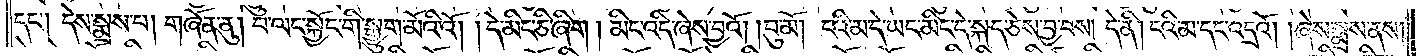དང༌། དེས་སྨྲས་པ། གཞོན་ནུ། བ་ལང་སྐྱོང་གི་སྒྱུག་མོའི་འོ། །དེ་མིང་ཅི་ཞིག། མིང་འདི་ཞེས་བྱའོ། །བུ་མོ། ངའི་མ་དེ་ཡང་མིང་དེ་སྐད་ཅེས་བྱ་བས། དེ་ནི། ངའི་མ་དང་འདྲའོ། །ཞེས་སྨྲས་ནས།
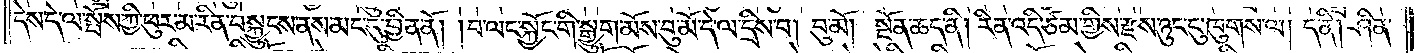དེས་དེ་ལ་སྤོས་ཀྱི་ཕུར་མ་རིན་བསྐྱུངས་ནས་མང་དུ་བྱིན་ནོ། །བ་ལང་སྐྱོང་གི་སྒྱུག་མོས་བུ་མོ་དེ་ལ་དྲིས་པ། བུ་མོ། སྔོན་ཆད་ནི། རིན་འདི་ཙམ་གྱིས་རྫས་ཉུང་ངུ་ཁུགས་ལ། ད་ནི། ཤིན་
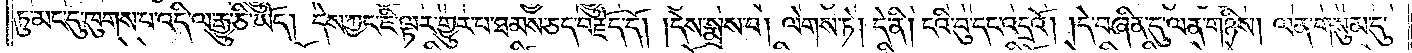ཏུ་མང་དུ་ཁུགས་པ་འདི་ལ་རྒྱུ་ཅི་ཡོད། དེས་ཀྱང་ཇི་ལྟར་གྱུར་པ་ཐམས་ཅད་བརྗོད་དོ། །དེས་སྨྲས་པ། ལེགས་ཏེ། དེ་ནི། ངའི་བུ་དང་འདྲའོ། །དེ་བཞིན་དུ་ལན་གཉིས། ལན་གསུམ་དུ་
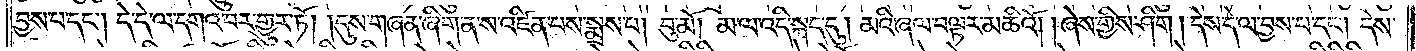བྱས་པ་དང༌། དེ་དེ་ལ་དགའ་བར་གྱུར་ཏོ། །དུས་གཞན་ཞིག་ན་ས་འཛིན་པས་སྨྲས་པ། བུ་མོ། མ་ལ་འདི་སྐད་དུ། མའི་ཞལ་བལྟར་མཆིའོ། །ཞེས་གྱིས་ཤིག །དེས་དེ་ལ་བྱས་པ་དང༌། དེས་
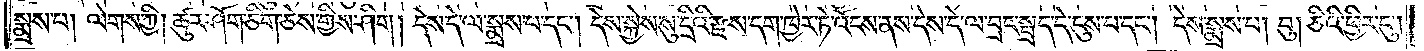སྨྲས་པ། ལེགས་ཀྱི། ཚུར་ཤོག་ཅིག་ཅེས་གྱིས་ཤིག། དེས་དེ་ལ་སྨྲས་པ་དང༌། དེས་སྐྱེས་སུ་དྲིའི་རྫས་དག་ཁྱེར་ཏེ་འོངས་ནས་དེས་དེ་ལ་བྲང་སྤྲད་དེ་དུས་པ་དང༌། དེས་སྨྲས་པ། བུ། ཅིའི་ཕྱིར་ངུ༌།
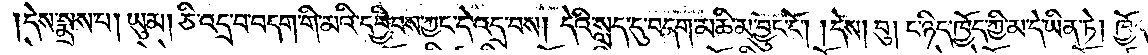དེས་སྨྲས་པ། ཡུམ། ཅི་འདྲ་བ་བདག་གི་མའི་དབྱིབས་ཀྱང་དེ་འདྲ་བས། དེའི་སླད་དུ་བདག་མཆི་མ་བྱུང་ངོ༌། །དེས། བུ། ང་ཉིད་ཁྱོད་ཀྱི་མ་དེ་ཡིན་ཏེ། ཁྱོད་
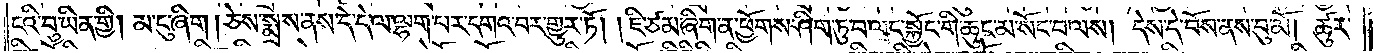ངའི་བུ་ཡིན་གྱི། མ་ངུ་ཞིག། ཅེས་སྨྲས་ནས་དེ་དེ་ལ་ལྷག་པར་དགའ་བར་གྱུར་ཏོ། །ཇི་ཙམ་ཞིག་ན་ཕྱོགས་ཤིག་ཏུ་བ་ལང་སྐྱོང་གི་ཆུང་མ་སོང་བ་ལས། དེས་དེ་བོས་ནས་བུ་མོ། ཚུར་
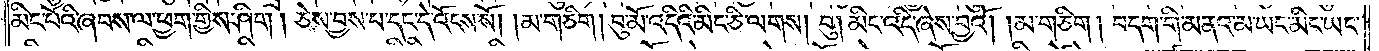མིང་པོའི་ཞབས་ལ་ཕྱག་གྱིས་ཤིག །ཅེས་བྱས་པ་དང་དེ་འོངས་སོ། །མ་གཅིག །བུ་མོ་འདིའི་མིང་ཅི་ལགས། བུ། མིང་འདི་ཞེས་བྱའོ། །མ་གཅིག །བདག་གི་མནའ་མ་ཡང་མིང་ཡང་
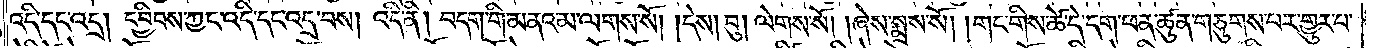འདི་དང་འདྲ། དབྱིབས་ཀྱང་འདི་དང་འདྲ་བས། འདི་ནི། བདག་གི་མནའ་མ་ལགས་སོ། །དེས། བུ། ལེགས་སོ། །ཞེས་སྨྲས་སོ། །གང་གིས་ཚེ་དེ་དག་ཕན་ཚུན་གཅུགས་པར་གྱུར་པ་
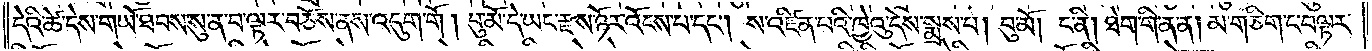དེའི་ཚེ་དེས་གཡོ་ཐབས་སུ་ན་བ་ལྟར་བཅོས་ནས་འདུག་གོ །བུ་མོ་དེ་ཡང་རྫས་ཉོར་འོངས་པ་དང༌། ས་འཛིན་པའི་ཁྱེའུ་དེས་སྨྲས་པ། བུ་མོ། ང་ནི། ཐེག་གི་ན་ན། མ་གཅིག་ང་བལྟར་
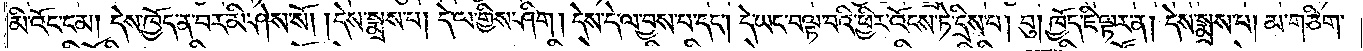མི་འོང་ངམ། དེས་ཁྱོད་ན་བར་མི་ཤེས་སོ། །དེས་སྨྲས་པ། དེ་ལ་གྱིས་ཤིག །དེས་དེ་ལ་བྱས་པ་དང༌། དེ་ཡང་བལྟ་བའི་ཕྱིར་འོངས་ཏེ་དྲིས་པ། བུ། ཁྱོད་ཇི་ལྟར་ན། དེས་སྨྲས་པ། མ་གཅིག་
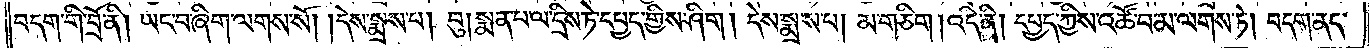བདག་གི་བྲོ་ནི། ཡང་བ་ཞིག་ལགས་སོ། །དེས་སྨྲས་པ། བུ། སྨན་པ་ལ་དྲིས་ཏེ་དཔྱད་གྱིས་ཤིག །དེས་སྨྲས་པ། མ་གཅིག །འདི་ནི། དཔྱད་ཀྱིས་འཚོ་བ་མ་ལགས་ཏེ། བདག་ནད་
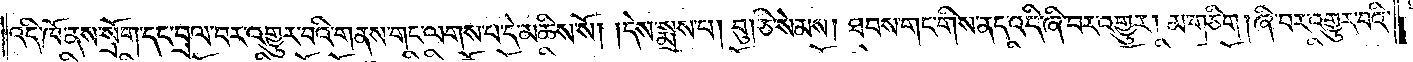འདི་ཁོ་ནས་སྲོག་དང་བྲལ་བར་འགྱུར་བའི་གནས་གང་ལགས་པ་དེ་མཆིས་སོ། །དེས་སྨྲས་པ། བུ། ཅི་སེམས། ཐབས་གང་གིས་ནད་འདི་ཞི་བར་འགྱུར། མ་གཅིག །ཞི་བར་འགྱུར་བའི་
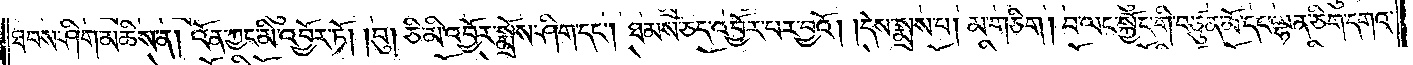ཐབས་ཤིག་མཆིས་ན། འོན་ཀྱང་མི་འབྱོར་ཏོ། །བུ། ཅི་མི་འབྱོར་སྨྲོས་ཤིག་དང༌། ཐམས་ཅད་འབྱོར་པར་བྱའོ། །དེས་སྨྲས་པ། མ་གཅིག །བ་ལང་སྐྱོང་གི་བཙུན་མོ་དང་ལྷན་ཅིག་དགའ་
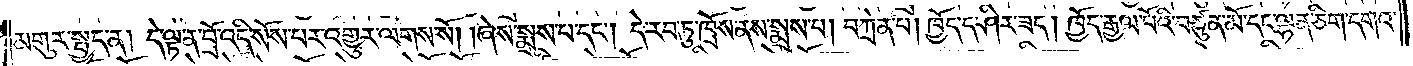མགུར་སྤྱད་ན། དེ་ལྟ་ན་བྲོ་འདི་སོས་པར་འགྱུར་ལགས་སོ། །ཞེས་སྨྲས་པ་དང༌། དེ་རབ་ཏུ་ཁྲོས་ནས་སྨྲས་པ། བཀྲེན་པ། ཁྱོད་ད་ཤིར་ཟད། ཁྱོད་རྒྱལ་པོའི་བཙུན་མོ་དང་ལྷན་ཅིག་དགའ་
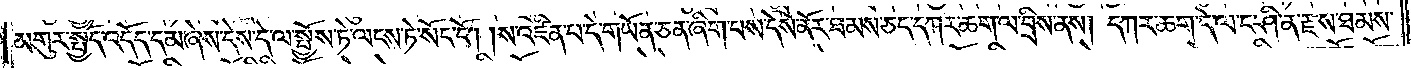མགུར་སྤྱོད་འདོད་དམ་ཞེས་དེས་དེ་ལ་སྤྱོས་ཏེ་ལངས་ཏེ་སོང་ངོ༌། །ས་འཛིན་པ་དེ་གཡོན་ཅན་ཞིག་པས་དེས་ནོར་ཐམས་ཅད་དཀར་ཆག་ལ་བྲིས་ནས། དཀར་ཆག་དེ་ལ་ང་ཤི་ན་རྫས་ཐམས་
